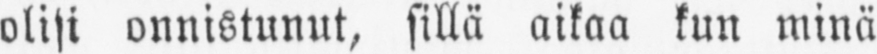olisi onnistunut, sillä aikaa kun minä
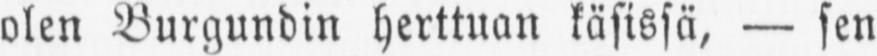olen Burgundin herttuan käsissä, — sen
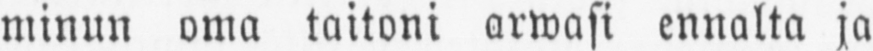minun oma taitoni armasi ennalta ja
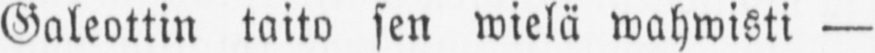Galeottin taito sen wielä wahwisti —
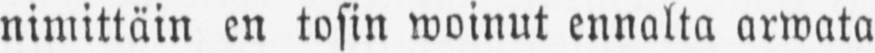nimittäin en tosin woinut ennalta arwata
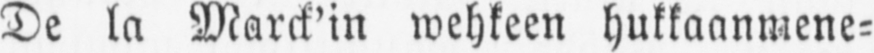De la Marck'in wehkeen hukkaanmene-
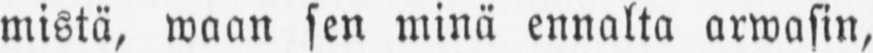mistä, waan sen minä ennalta arwasin,
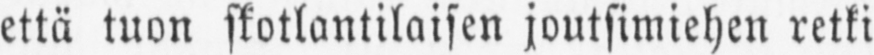että tuon skotlantilaisen joutsimiehen retki
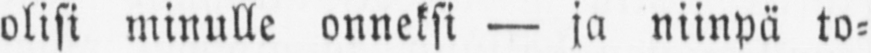olisi minulle onneksi — ja niinpä to-
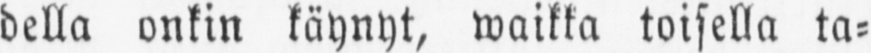della onkin käynyt, waikka toisella ta-
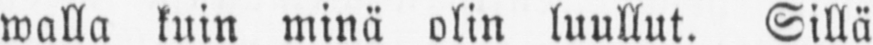walla kuin minä olin luullut. Sillä
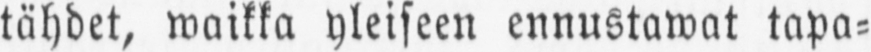tähdet, waikka yleiseen ennustawat tapa-
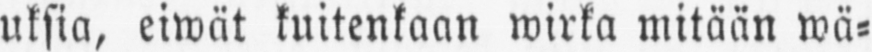uksia, eiwät kuitenkaan wirka mitään wä-
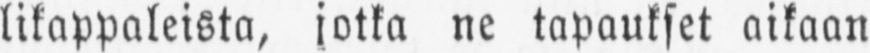likappaleista, jotka ne tapaukset aikaan
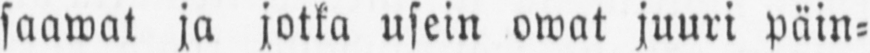saawat ja jotka usein owat juuri päin-
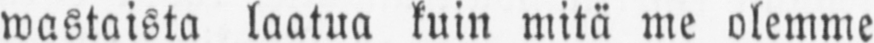wastaista laatua kuin mitä me olemme
